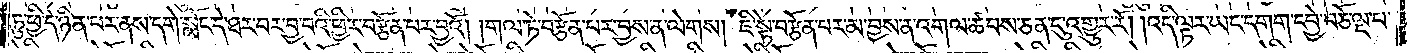ཏུ་ཕྱི་དེ་ཉིན་པར་ནས་དགེ་སློང་དེ་ཐར་བར་བྱ་བའི་ཕྱིར་བརྩོན་པར་བྱའོ། །གལ་ཏེ་བརྩོན་པར་བྱས་ན་ལེགས། ཇི་སྟེ་བརྩོན་པར་མ་བྱས་ན་འགལ་ཚབས་ཅན་དུ་འགྱུར་རོ། །འདི་ལྟར་ཡང་དགག་དབྱེ་བཅོ་ལྔ་པ་
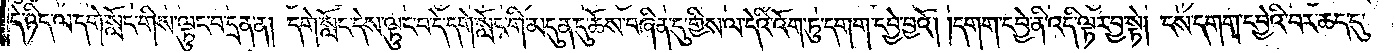དེ་ཉིད་ལ་དགེ་སློང་གིས་ལྟུང་བ་དྲན་ན། དགེ་སློང་དེས་ལྟུང་བ་དེ་དགེ་སློང་གི་མདུན་དུ་ཆོས་བཞིན་དུ་གྱིས་ལ་དེའི་འོག་ཏུ་དགག་དབྱེ་བྱའོ། །དགག་དབྱེ་ནི་འདི་ལྟར་བྱ་སྟེ། ངས་དགག་དབྱེའི་བར་ཆད་དུ་
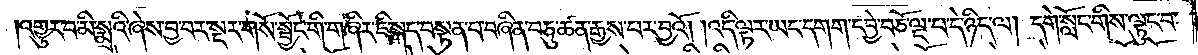འགྱུར་བ་མི་སྨྲའི་ཞེས་བྱ་བར་སྔར་གསོ་སྦྱོང་གི་གཞིར་ཇི་སྐད་བསྟན་པ་བཞིན་བཅུ་ཚན་རྒྱས་པར་བྱའོ། །འདི་ལྟར་ཡང་དགག་དབྱེ་བཅོ་ལྔ་པ་དེ་ཉིད་ལ། དགེ་སློང་གིས་ལྟུང་བ་
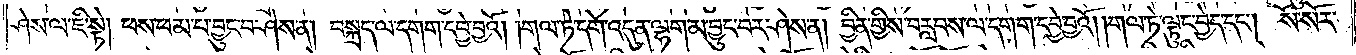ཤེས་ལ་ཇི་སྟེ། ཕས་ཕམ་པ་བྱུང་བ་ཤེས་ན། བསྐྲད་ལ་དགག་དབྱེ་བྱའོ། །གལ་ཏེ་དགེ་འདུན་ལྷག་མ་བྱུང་བར་ཤེས་ན། བྱིན་གྱིས་བརླབས་ལ་དགག་དབྱེ་བྱའོ། །གལ་ཏེ་ལྟུང་བྱེད་དང༌། སོ་སོར་
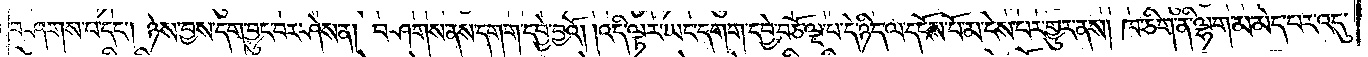བཤགས་པ་དང༌། ཉེས་བྱས་དག་བྱུང་བར་ཤེས་ན། བཤགས་ནས་དགག་དབྱེ་བྱའོ། །འདི་ལྟར་ཡང་དགག་དབྱེ་བཅོ་ལྔ་པ་དེ་ཉིད་ལ་དངོས་པོ་མ་ངེས་པར་གྱུར་ནས། ཁ་ཅིག་ནི་ལྷག་མ་མེད་པར་འདུ་
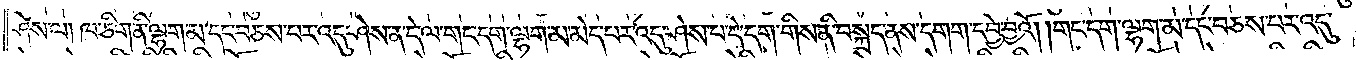ཤེས་ལ། ཁ་ཅིག་ནི་ལྷག་མ་དང་བཅས་པར་འདུ་ཤེས་ན་དེ་ལ་གང་དག་ལྷག་མ་མེད་པར་འདུ་ཤེས་པ་དེ་དག་གིས་ནི་བསྐྲད་ནས་དགག་དབྱེ་བྱའོ། །གང་དག་ལྷག་མ་དང་བཅས་པར་འདུ་
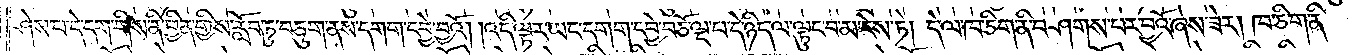ཤེས་པ་དེ་དག་གིས་ནི་བྱིན་གྱིས་རློབ་ཏུ་བཅུག་ནས་དགག་དབྱེ་བྱའོ། །འདི་ལྟར་ཡང་དགག་དབྱེ་བཅོ་ལྔ་པ་དེ་ཉིད་ལ་ལྟུང་བ་མ་ངེས་ཏེ། དེ་ལ་ཁ་ཅིག་ནི་བཤགས་པར་བྱའོ་ཞེས་ཟེར། ཁ་ཅིག་ནི་
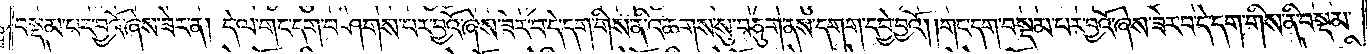བསྡམ་པར་བྱའོ་ཞེས་ཟེར་ན། དེ་ལ་གང་དག་བཤགས་པར་བྱའོ་ཞེས་ཟེར་བ་དེ་དག་གིས་ནི་འཆགས་སུ་བཅུག་ནས་དགག་དབྱེ་བྱའོ། །གང་དག་བསྡམ་པར་བྱའོ་ཞེས་ཟེར་བ་དེ་དག་གིས་ནི་བསྡམ་
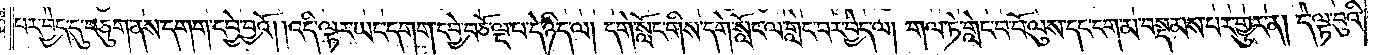པར་བྱེད་དུ་བཅུག་ནས་དགག་དབྱེ་བྱའོ། །འདི་ལྟར་ཡང་དགག་དབྱེ་བཅོ་ལྔ་པ་དེ་ཉིད་ལ། དགེ་སློང་གིས་དགེ་སློང་ལ་གླེང་བར་བྱེད་ལ། གལ་ཏེ་གླེང་བ་པོ་ལུས་དང་ངག་མ་བསྡམས་པར་གྱུར་ན། དེ་ལྟ་བུའི་
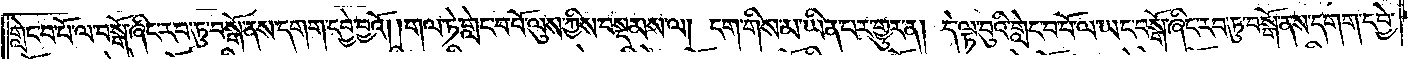གླེང་བ་པོ་ལ་བསྒོ་ཞིང་རབ་ཏུ་བསྒོ་ནས་དགག་དབྱེ་བྱའོ། །གལ་ཏེ་གླེང་བ་པོ་ལུས་ཀྱིས་བསྡམས་ལ། ངག་གིས་མ་ཡིན་པར་གྱུར་ན། དེ་ལྟ་བུའི་གླེང་བ་པོ་ལ་ཡང་བསྒོ་ཞིང་རབ་ཏུ་བསྒོ་ནས་དགག་དབྱེ་
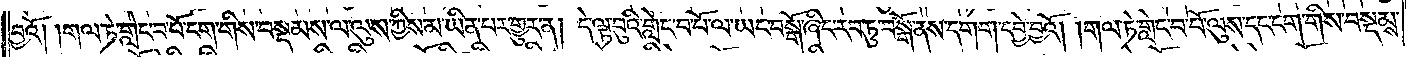བྱའོ། །གལ་ཏེ་གླེང་བ་པོ་ངག་གིས་བསྡམས་ལ་ལུས་ཀྱིས་མ་ཡིན་པར་གྱུར་ན། དེ་ལྟ་བུའི་གླེང་བ་པོ་ལ་ཡང་བསྒོ་ཞིང་རབ་ཏུ་བསྒོ་ནས་དགག་དབྱེ་བྱའོ། །གལ་ཏེ་གླེང་བ་པོ་ལུས་དང་ངག་གིས་བསྡམས་
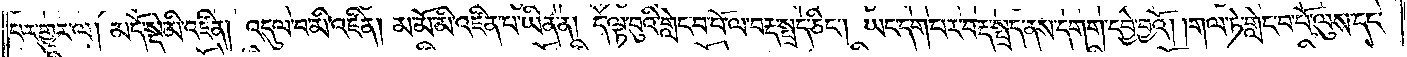པར་གྱུར་ལ། མདོ་སྡེ་མི་འཛིན། འདུལ་བ་མི་འཛིན། མ་མོ་མི་འཛིན་པ་ཡིན་ན། དེ་ལྟ་བུའི་གླེང་བ་པོ་ལ་བརྡ་སྤྲད་ཅིང༌། ཡང་དག་པར་བརྡ་སྤྲད་ནས་དགག་དབྱེ་བྱའོ། །གལ་ཏེ་གླེང་བ་པོ་ལུས་དང་
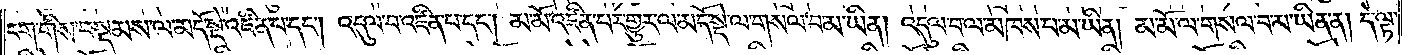ངག་གིས་བསྡམས་ལ་མདོ་སྡེ་འཛིན་པ་དང༌། འདུལ་བ་འཛིན་པ་དང༌། མ་མོ་འཛིན་པར་གྱུར་ལ་མདོ་སྡེ་ལ་གསལ་བ་མ་ཡིན། འདུལ་བ་ལ་མཁས་པ་མ་ཡིན། མ་མོ་ལ་གསལ་བ་མ་ཡིན་ན། དེ་ལྟ་
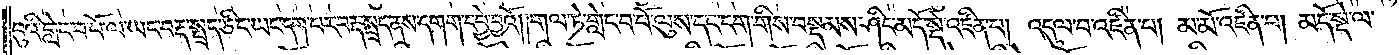བུའི་གླེང་བ་པོ་ལ་ཡང་བརྡ་སྤྲད་ཅིང་ཡང་དག་པར་བརྡ་སྤྲད་ནས་དགག་དབྱེ་བྱའོ། །གལ་ཏེ་གླེང་བ་པོ་ལུས་དང་ངག་གིས་བསྡམས་ཤིང་མདོ་སྡེ་འཛིན་པ༑ འདུལ་བ་འཛིན་པ། མ་མོ་འཛིན་པ། མདོ་སྡེ་ལ་
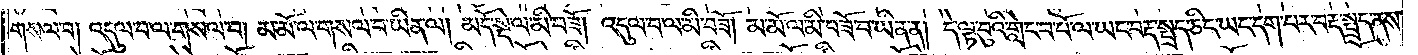གསལ་བ། འདུལ་བ་ལ་གསལ་བ། མ་མོ་ལ་གསལ་བ་ཡིན་ལ། མདོ་སྡེ་ལ་མི་བཟོ། འདུལ་བ་ལ་མི་བཟོ། མ་མོ་ལ་མི་བཟོ་བ་ཡིན་ན། དེ་ལྟ་བུའི་གླེང་བ་པོ་ལ་ཡང་བརྡ་སྤྲད་ཅིང་ཡང་དག་པར་བརྡ་སྤྲད་ནས་
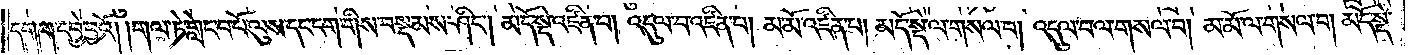དགག་དབྱེ་བྱའོ། །གལ་ཏེ་གླེང་བ་པོ་ལུས་དང་ངག་གིས་བསྡམས་ཤིང༌། མདོ་སྡེ་འཛིན་པ། འདུལ་བ་འཛིན་པ། མ་མོ་འཛིན་པ། མདོ་སྡེ་ལ་གསལ་བ། འདུལ་བ་ལ་གསལ་བ། མ་མོ་ལ་གསལ་བ། མདོ་སྡེ་
